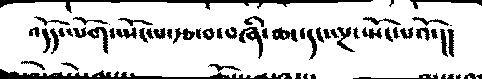འདོད་ལོག་སྤོངས་པ་རྩ་བ་བཞི་ཆང་དང་ལྔ་སྤོང་པའོ་།།
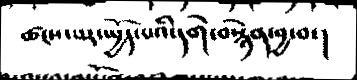ཚངས་པར་སྤྱོད་པའི་དགེ་བསྙེན་བྱ་བ་།
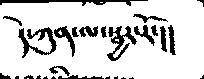དེ་ཀུན་ལ་སྦྱར་རོ་།།
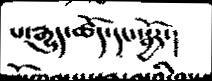པ་རྒྱུད་ཆོད་དང་སྦྱོར་།
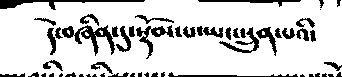དེ་བཞིན་དུ་སྡོམ་པ་ཡང་སྲུན་པའི་
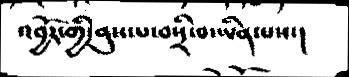འབྱོར་གྱི་ནུས་པ་བསྲི་བ་ཡིན་པས་།
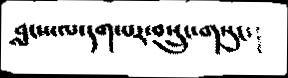བླངས་ལ་དག་པར་བསྲུང་གསུང་།
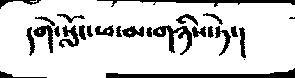དགེ་སློང་ཕ་མ་གཉིས་ཏེ་།
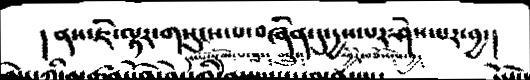། ནས་ཇི་ལྟར་གསུངས་པ་བཞིན་དུ་དྱས་པར་ཤེས་པར་བྱ་།
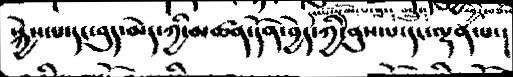སྐྱེས་པ་དང་བུད་མེད་ཀྱི་མཚན་དོན་བྱེད་ཀྱི་ནུས་པ་དང་ལྷན་པ་།
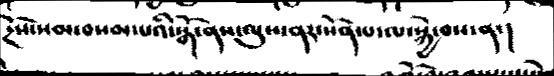རྔེསེ་སམ་བསམ་པའི་སྒོ་ནས་ལུས་ནར་སོན་པ་ལ་སྐྱེ་བས་ན་།
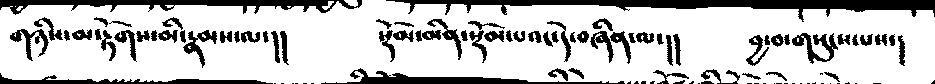གཉིས་མ་རྟོགས་མི་རྣམས་ལ་།།   སྡོམ་མིན་སྡོམ་པའང་བདེ་བཞིན་ལ་།།   བྱ་བ་གསུངས་པས་།
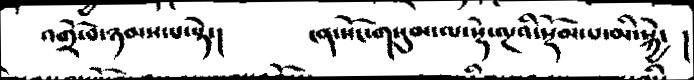འགྲོ་བ་ཉམས་པ་སྟེ་།   ངན་སོང་གསུམ་ལ་སྟེ་ལྔའི་སྡོམ་པ་མི་སྐྱེ་ །
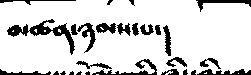མཚན་ཉམས་པ་།
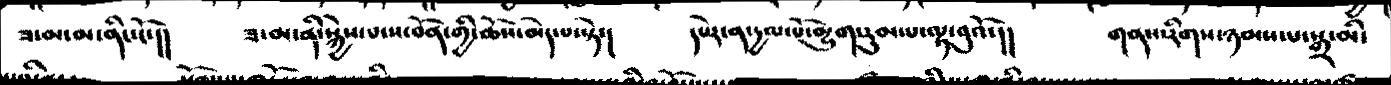ཟ་མ་མ་ནིང་ངོ་།།  ཟ་མ་ནི་སྐྱེས་པ་ས་བོན་གྱི་ཆོས་མེད་པ་སྟེ་།  དཔེར་ན་དྱལ་པོ་མྱུག་རུམ་པ་ལྟ་བུའོ་།།  གནས་རིགས་ཉམས་པ་སྒྲ་མི་
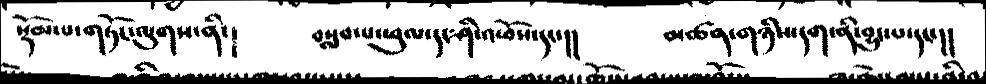སྡོམ་པ་གཏོང་ལུགས་ནི་།  བསླབ་པ་ཕུལ་དང་ཤི་འཕོས་དང་།།  མཚན་གཉིས་དག་ནི་བྱུང་པ་དང་།།
